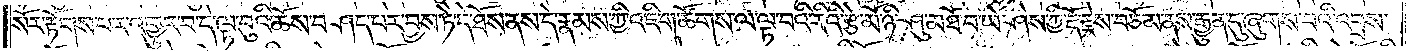སོར་རྟོགས་པར་འགྱུར་བ་དེ་ལྟ་བུའི་ཆོས་བཤད་པར་བྱས་ཏེ་དེ་ཐོས་ནས་དེ་རྣམས་ཀྱི་འཇིག་ཚོགས་ལ་ལྟ་བའི་རིའི་རྩེ་མོ་ཉི་ཤུ་མཐོ་བ་ཡེ་ཤེས་ཀྱི་རྡོ་རྗེས་བཅོམ་ནས་རྒྱུན་དུ་ཞུགས་པའི་འབྲས་
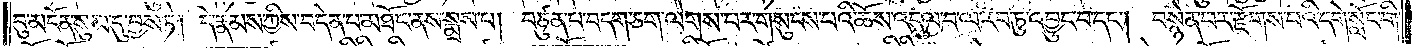བུ་མངོན་སུམ་དུ་བྱས་ཏེ། དེ་རྣམས་ཀྱིས་བདེན་པ་མཐོང་ནས་སྨྲས་པ། བཙུན་པ་བདག་ཅག་ལེགས་པར་གསུངས་པའི་ཆོས་འདུལ་བ་ལ་རབ་ཏུ་འབྱུང་བ་དང༌། བསྙེན་པར་རྫོགས་པའི་དགེ་སློང་གི་
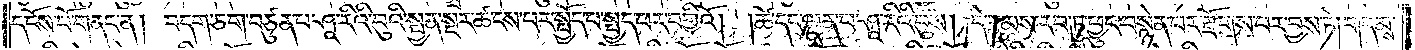དངོས་པོ་གནང་ན། བདག་ཅག་བཙུན་པ་ཤཱ་རིའི་བུའི་སྤྱན་སྔར་ཚངས་པར་སྤྱོད་པ་སྤྱད་པར་བགྱིའོ། །ཚེ་དང་ལྡན་པ་ཤཱ་རིའི་བུས། དེ་རྣམས་རབ་ཏུ་ཕྱུང་བསྙེན་པར་རྫོགས་པར་བྱས་ཏེ། གདམས་
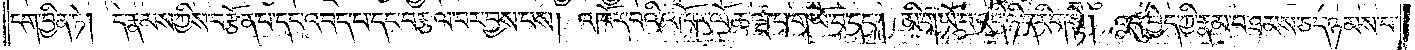ངག་བྱིན་ཏེ། དེ་རྣམས་ཀྱིས་བརྩོན་པ་དང་འབད་པ་དང་བརྩལ་བར་བྱས་པས། འཁོར་བའི་འཁོར་ལོ་ཆ་ལྔ་པ་གཡོ་བ་དང༌། མི་གཡོ་བ་འདི་ཉིད་རིག་སྟེ། འདུ་བྱེད་ཀྱི་རྣམ་པ་ཐམས་ཅད་ཉམས་པ་
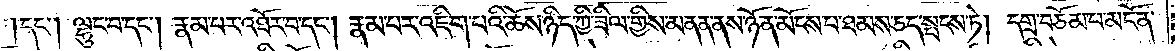དང༌། ལྷུང་བ་དང༌། རྣམ་པར་འཐོར་བ་དང༌། རྣམ་པར་འཇིག་པའི་ཆོས་ཉིད་ཀྱི་ཟིལ་གྱིས་མནན་ནས་ཉོན་མོངས་པ་ཐམས་ཅད་སྤངས་ཏེ། དགྲ་བཅོམ་པ་མངོན་
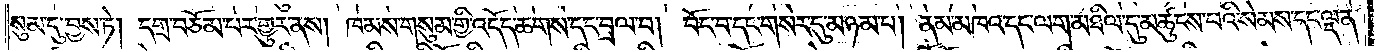སུམ་དུ་བྱས་ཏེ། དགྲ་བཅོམ་པར་གྱུར་ནས། ཁམས་གསུམ་གྱི་འདོད་ཆགས་དང་བྲལ་བ། བོང་བ་དང་གསེར་དུ་མཉམ་པ། ནམ་མཁའ་དང་ལག་མཐིལ་དུ་མཚུངས་པའི་སེམས་དང་ལྡན་
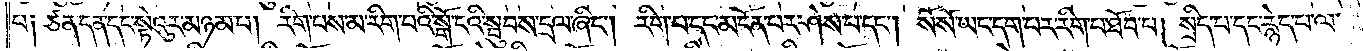པ༑ ཙན་དན་དང་སྟེའུར་མཉམ་པ། རིག་པས་མ་རིག་པའི་སྒོ་ངའི་སྦུབས་དྲལ་ཞིང༌། རིག་པ་དང་མངོན་པར་ཤེས་པ་དང༌། སོ་སོ་ཡང་དག་པར་རིག་པ་ཐོབ་པ། སྲིད་པ་དང་རྙེད་པ་ལ་
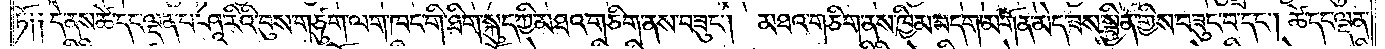ཏོ༑ ༑དེ་ནས་ཚེ་དང་ལྡན་པ་ཤཱ་རིའི་བུས་གཙུག་ལག་ཁང་གི་ཐིག་སྐུད་ཀྱི་མཐའ་གཅིག་ནས་བཟུང༌། མཐའ་གཅིག་ནས་ཁྱིམ་བདག་མགོན་མེད་ཟས་སྦྱིན་གྱིས་བཟུང་བ་དང༌། ཚེ་དང་ལྡན་
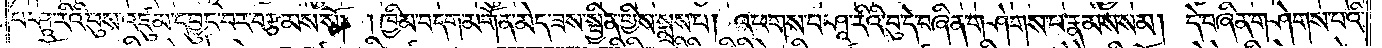པ་ཤཱ་རིའི་བུས་འཛུམ་དབྱུང་བར་བརྩམས་སོ། །ཁྱིམ་བདག་མགོན་མེད་ཟས་སྦྱིན་གྱིས་སྨྲས་པ། འཕགས་པ་ཤཱ་རིའི་བུ་དེ་བཞིན་གཤེགས་པ་རྣམས་སམ། དེ་བཞིན་གཤེགས་པའི་
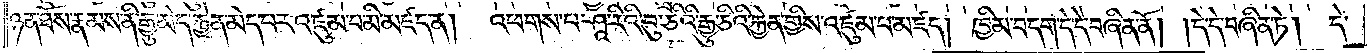ཉན་ཐོས་རྣམས་ནི་རྒྱུ་མེད་རྐྱེན་མེད་པར་འཛུམ་པ་མི་མཛད་ན།   འཕགས་པ་ཤཱ་རིའི་བུ་ཅིའི་རྒྱུ་ཅིའི་རྐྱེན་གྱིས་འཛུམ་པ་མཛད། ཁྱིམ་བདག་དེ་དེ་བཞིན་ནོ། །དེ་དེ་བཞིན་ཏེ།   དེ་
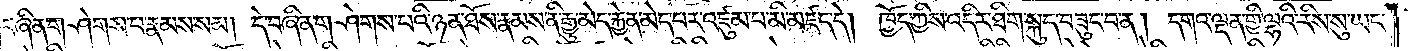བཞིན་གཤེགས་པ་རྣམས་སམ། དེ་བཞིན་གཤེགས་པའི་ཉན་ཐོས་རྣམས་ནི་རྒྱུ་མེད་རྐྱེན་མེད་པར་འཛུམ་པ་མི་མཛད་དེ། ཁྱོད་ཀྱིས་འདིར་ཐིག་སྐུད་བཟུང་བ་ན། དགའ་ལྡན་གྱི་ལྷའི་རིས་སུ་ཡང་
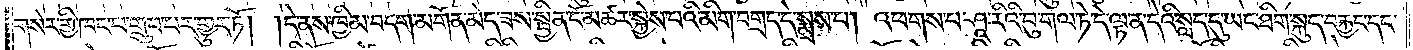གསེར་གྱི་ཁང་པ་གྲུབ་པར་གྱུར་ཏོ། །དེ་ནས་ཁྱིམ་བདག་མགོན་མེད་ཟས་སྦྱིན་ངོ་མཚར་སྐྱེས་པའི་མིག་བགྲད་དེ་སྨྲས་པ། འཕགས་པ་ཤཱ་རིའི་བུ་གལ་ཏེ་དེ་ལྟ་ན་དེའི་སླད་དུ་ཡང་ཐིག་སྐུད་བརྐྱང་དང་
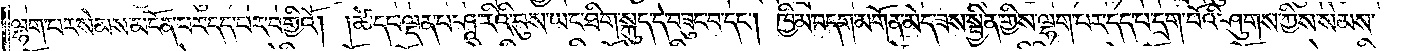ལྷག་པར་སེམས་མངོན་པར་དད་པར་བགྱིའོ། །ཚེ་དང་ལྡན་པ་ཤཱ་རིའི་བུས་ཡང་ཐིག་སྐུད་དེ་བཟུང་བ་དང༌། ཁྱིམ་བདག་མགོན་མེད་ཟས་སྦྱིན་གྱིས་ལྷག་པར་དད་པ་དྲག་པོའི་ཤུགས་ཀྱིས་སེམས་
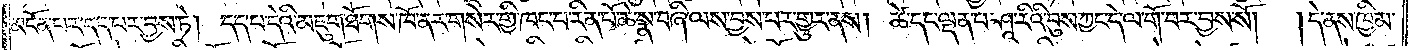མངོན་པར་དད་པར་བྱས་ཏེ། དད་པ་དེའི་མཇུག་ཐོགས་ཁོ་ནར་གསེར་གྱི་ཁང་པ་རིན་པོ་ཆེ་སྣ་བཞི་ལས་བྱས་པར་གྱུར་ནས། ཚེ་དང་ལྡན་པ་ཤཱ་རིའི་བུས་ཀྱང་དེ་ལ་གོ་བར་བྱས་སོ། །དེ་ནས་ཁྱིམ་
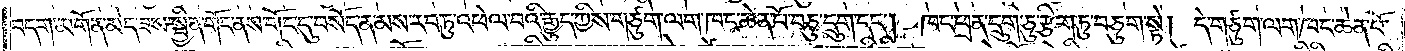བདག་མགོན་མེད་ཟས་སྦྱིན་གོང་ནས་གོང་དུ་བསོད་ནམས་རབ་ཏུ་འཕེལ་བའི་རྒྱུད་ཀྱིས་གཙུག་ལག་ཁང་ཆེན་པོ་བཅུ་དྲུག་དང༌། ཁང་ཕྲན་དྲུག་ཅུ་རྩིག་ཏུ་བཅུག་སྟེ། དེ་གཙུག་ལག་ཁང་ཆེན་པོ་
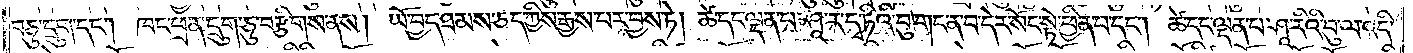བཅུ་དྲུག་དང༌། ཁང་ཕྲན་དྲུག་ཅུ་བརྩིགས་ནས། ཡོ་བྱད་ཐམས་ཅད་ཀྱིས་རྒྱས་པར་བྱས་ཏེ། ཚེ་དང་ལྡན་པ་ཤཱ་ར་དྭ་ཏིའི་བུ་གང་ན་བ་དེར་སོང་སྟེ་ཕྱིན་པ་དང༌། ཚེ་དང་ལྡན་པ་ཤཱ་རིའི་བུ་ལ་འདི་
